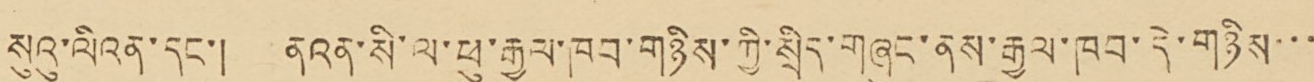སུའུ་ལིའན་དང་། ནའན་སི་ལ་ཕུ་རྒྱལ་ཁབ་གཉིས་ཀྱི་སྲིད་གཞུང་ནས་རྒྱལ་ཁབ་དེ་གཉིས་་་
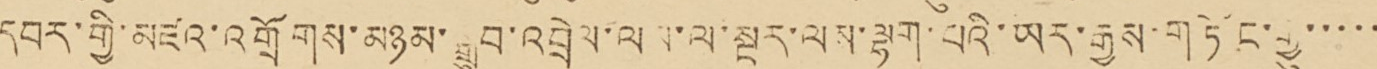དབར་གྱི་མཛའ་འགྲོགས་མཉམ་སྒྲུབ་འབྲེལ་ལམ་ལ་སྔར་ལས་ལྷག་པའི་ཡར་རྒྱས་གཏོང་རྒྱུ་་་་་
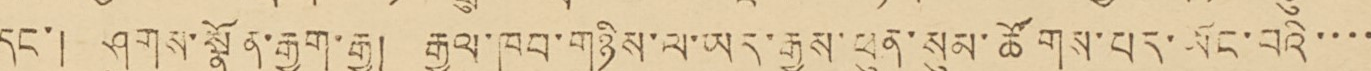དང་། ཤུགས་སྣོན་རྒྱག་རྒྱུ། རྒྱལ་ཁབ་གཉིས་ལ་ཡར་རྒྱས་ཕུན་སུམ་ཚོགས་པར་ཡོང་བའི་་་་
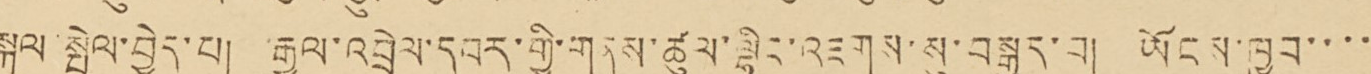སྐུལ་སྤེལ་བྱེད་པ། རྒྱལ་འབྲེལ་དབར་གྱི་གནས་ཚུལ་ལྷིང་འཇགས་སུ་བསྒྱུར་པ། ཡོངས་ཁྱབ་་་་
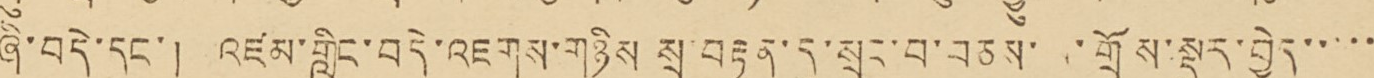ཞི་བདེ་དང་། འཛམ་གླིང་བདེ་འཇགས་གཉིས སྲ་བརྟན་དུ་སྲུང་བ་བཅས་ གྲོས་སྡུར་བྱེད་་་་་
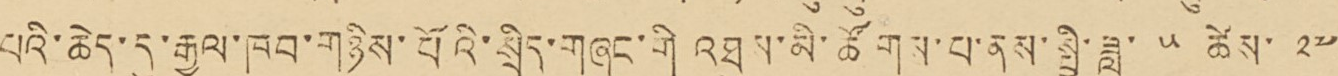པའི་ཆེད་དུ་རྒྱལ་ཁབ་གཉིས་པོའི་སྲིད་གཞུང་གི འཐུས་མི་ཚོགས་པ་ནས་སྤྱི་ཟླ་ ༥ ཚེས་ ༢༧
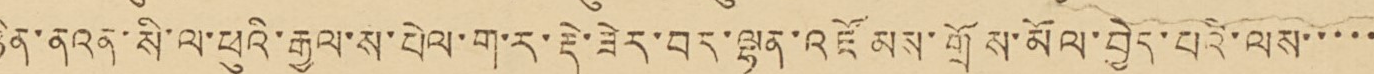ཉིན་ནའན་སི་ལ་ཕུའི་རྒྱལ་ས་པེལ་ག་ར་རྡེ་ཟེར་བར་ལྷན་འཛོམས་གྲོས་མོལ་བྱེད་པའི་ལས་་་་་
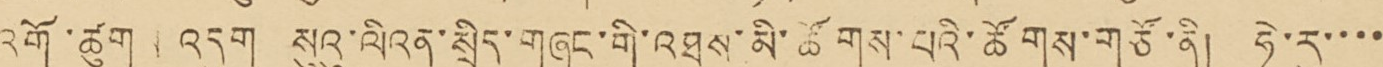འགོ་ཚུག འདུག སུའུ་ལིའན་སྲིད་གཞུང་གི་འཐུས་མི་ཚོགས་པའི་ཚོགས་གཙོ་ནི། ཧེ་རུ་་་་
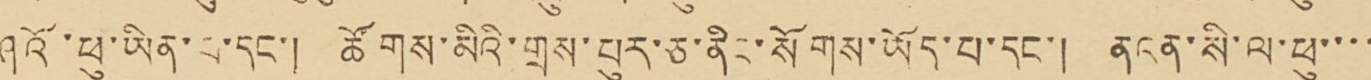ཤའོ་ཕུ་ཡིན་པ་དང་། ཚོགས་མིའི་གྲས་པུར་ཅ་ནིང་སོགས་ཡོད་པ་དང་། ནའན་སི་ལ་ཕུ་་་་
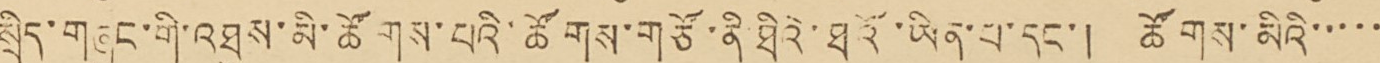སྲིད་གཞུང་གི་འཐུས་མི་ཚོགས་པའི་ཚོགས་གཙོ་ནི་ཐའོ་ཡིན་པ་དང་། ཚོགས་མིའི་་་་་
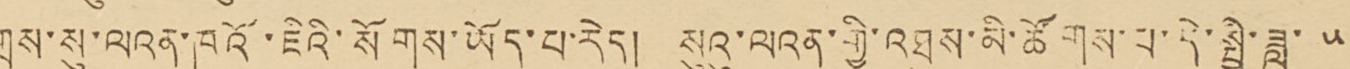གྲས་སུ་ལའན་ཁའོ་ཇིའི་སོགས་ཡོད་པ་རེད། སུའུ་ལའན་གྱི་འཐུས་མི་ཚོགས་པ་དེ་སྤྱི་ཟླ་ ༥
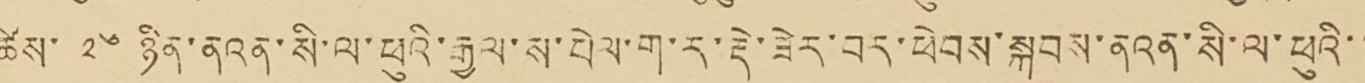ཚེས་ ༢༦ ཉིན་ནའན་སི་ལ་ཕུའི་རྒྱལ་ས་པེལ་ག་ར་རྡེ་ཟེར་བར་ཕེབས་སྐབས་ནའན་སི་ལ་ཕུའི་་
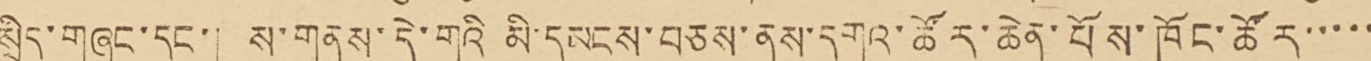སྲིད་གཞུང་དང་། ས་གནས་དེ་གའི་མི་དམངས་བཅས་ནས་དགའ་ཚོར་ཆེན་པོས་ཁོང་ཚོར་་་་་
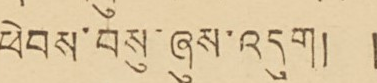ཕེབས་བསུ་ཞུས་འདུག། །
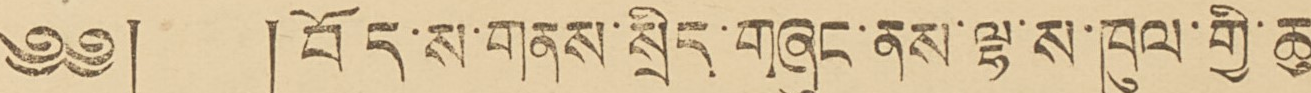༄༅། །བོད་ས་གནས་སྲིད་གཞུང་ནས་ལྷ་ས་ཁུལ་གྱི་ཆུ་
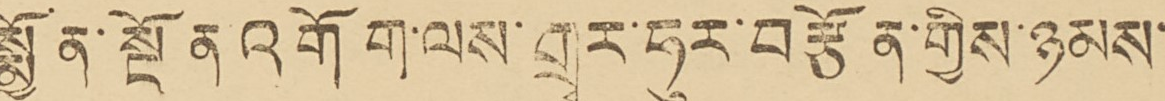སྨྱོན་སྔོན་འགོག་ལས་གྲྭར་ཧུར་བརྩོན་གྱིས་ཉམས་
